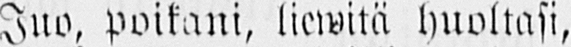Juo, poikani, liewitä huoltasi,
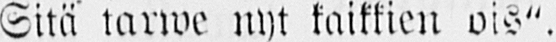Sitä tarwe nyt kaikkien ois".
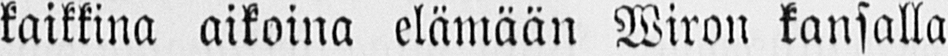kaikkina aikoina elämään Wiron kansalla
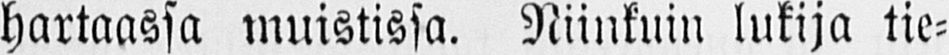hartaassa muistissa. Niinkuin lukija tie-
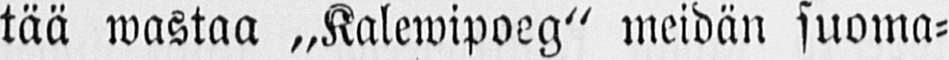tää wastaa „Kalewipoeg" meidän suoma-
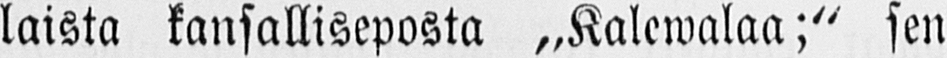laista kansalliseposta „Kalewalaa;" sen
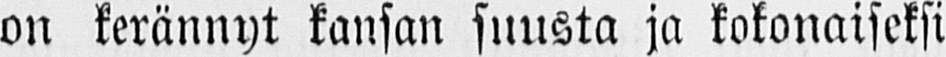on kerännyt kansan suusta ja kokonaiseksi
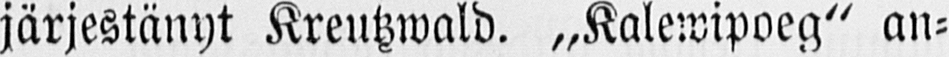järjestänyt Kreutzwald. „Kalewipoeg" an-
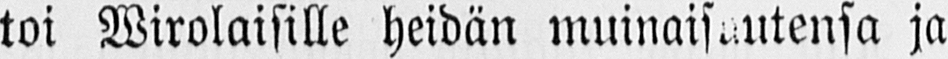toi Wirolaisille heidän muinaisuutensa ja
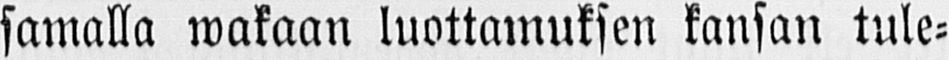samalla wakaan luottamuksen kansan tule-
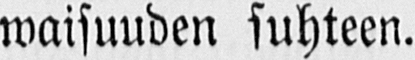waisuuden suhteen.
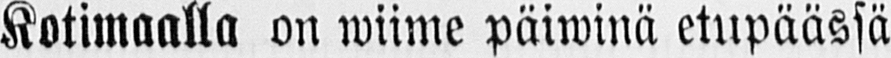Kotimaalla on wiime päiwinä etupäässä
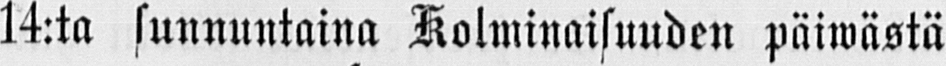14:ta sunnuntaina Kolminaisuuden päiwästä
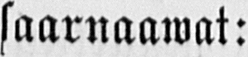saarnaawat:
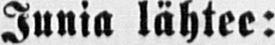Junia lähtee:
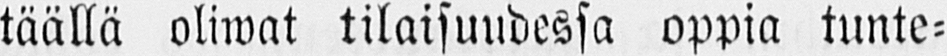täällä oliwat tilaisuudessa oppia tunte-
